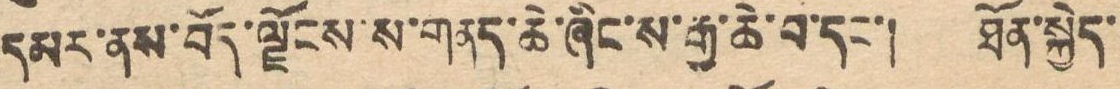དམར་ནས་བོད་ལྗོངས་ས་གནད་ཆེ་ཞིང་ས་རྒྱ་ཆེ་བ་དང་། ཐོན་སྐྱེད་
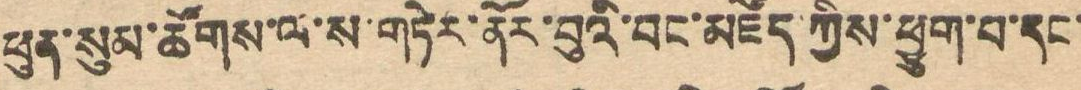ཕུན་སུམ་ཚོགས་ལ་ས་གཏེར་ནོར་བུའི་བང་འཛོད ཀྱིས་ཕྱུག་བ་དང་
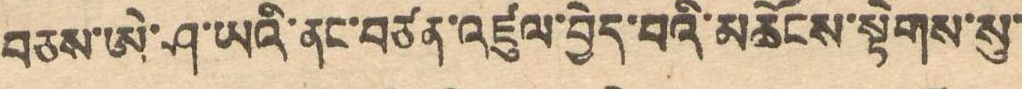བཅས་ཡེ་ཤ་ཡའི་ནང་བཙན་འཛུལ་བྱེད་པའི་མཆོངས་སྟེགས་སུ་
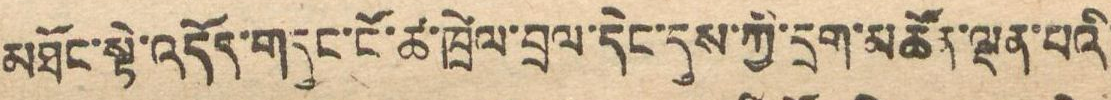མཐོང་སྟེ་འདོད་གདུང་ངོ་ཚ་ཁྲེལ་བྲལ་དེང་དུས་ཀྱི་དྲག་མཚོན་ལྡན་པའི་
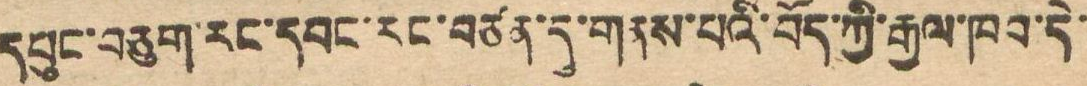དཔུང་བཅུག་རང་དབང་རང་བཙན་དུ་གནས་པའི་བོད་ཀྱི་རྒྱལ་ཁབ་དེ་
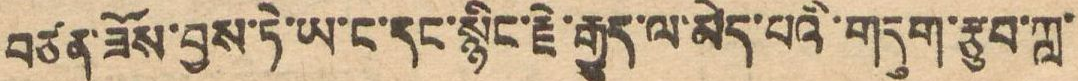བཙན་ཟོས་བྱས་ཏེ་ཡ་ང་དང་སྙིང་རྗེ་རྒྱུད་ལ་མེད་པའི་གདུག་རྩུབ་ཀླ་
